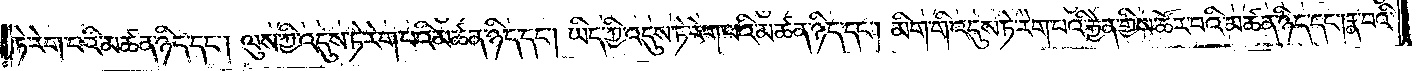ཏེ་རེག་པའི་མཚན་ཉིད་དང༌། ལུས་ཀྱི་འདུས་ཏེ་རེག་པའི་མཚན་ཉིད་དང༌། ཡིད་ཀྱི་འདུས་ཏེ་རེག་པའི་མཚན་ཉིད་དང༌། མིག་གི་འདུས་ཏེ་རེག་པའི་རྐྱེན་གྱིས་ཚོར་བའི་མཚན་ཉིད་དང༌། རྣ་བའི་
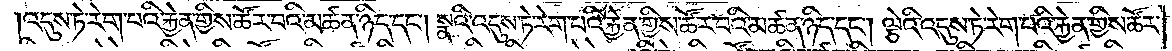འདུས་ཏེ་རེག་པའི་རྐྱེན་གྱིས་ཚོར་བའི་མཚན་ཉིད་དང༌། སྣའི་འདུས་ཏེ་རེག་པའི་རྐྱེན་གྱིས་ཚོར་བའི་མཚན་ཉིད་དང༌། ལྕེའི་འདུས་ཏེ་རེག་པའི་རྐྱེན་གྱིས་ཚོར་
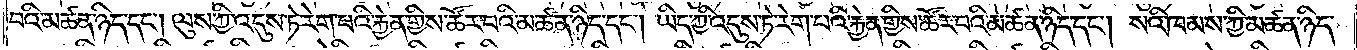བའི་མཚན་ཉིད་དང༌། ལུས་ཀྱི་འདུས་ཏེ་རེག་པའི་རྐྱེན་གྱིས་ཚོར་བའི་མཚན་ཉིད་དང༌། ཡིད་ཀྱི་འདུས་ཏེ་རེག་པའི་རྐྱེན་གྱིས་ཚོར་བའི་མཚན་ཉིད་དང༌། སའི་ཁམས་ཀྱི་མཚན་ཉིད་
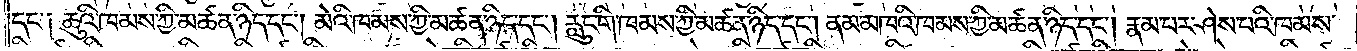དང་༑ ཆུའི་ཁམས་ཀྱི་མཚན་ཉིད་དང༌། མེའི་ཁམས་ཀྱི་མཚན་ཉིད་དང༌། རླུང་གི་ཁམས་ཀྱི་མཚན་ཉིད་དང༌། ནམ་མཁའི་ཁམས་ཀྱི་མཚན་ཉིད་དང༌། རྣམ་པར་ཤེས་པའི་ཁམས་
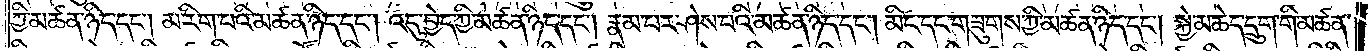ཀྱི་མཚན་ཉིད་དང༌། མ་རིག་པའི་མཚན་ཉིད་དང༌། འདུ་བྱེད་ཀྱི་མཚན་ཉིད་དང༌། རྣམ་པར་ཤེས་པའི་མཚན་ཉིད་དང༌། མིང་དང་གཟུགས་ཀྱི་མཚན་ཉིད་དང༌། སྐྱེ་མཆེད་དྲུག་གི་མཚན་
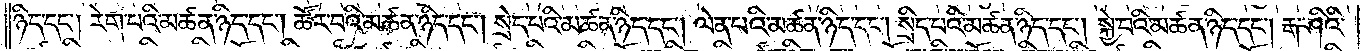ཉིད་དང༌། རེག་པའི་མཚན་ཉིད་དང༌། ཚོར་བའི་མཚན་ཉིད་དང༌། སྲེད་པའི་མཚན་ཉིད་དང༌། ལེན་པའི་མཚན་ཉིད་དང༌། སྲིད་པའི་མཚན་ཉིད་དང༌། སྐྱེ་བའི་མཚན་ཉིད་དང༌། རྒ་ཤིའི་
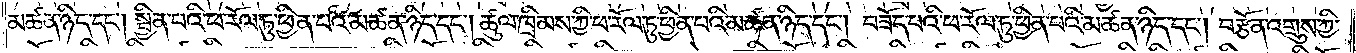མཚན་ཉིད་དང༌། སྦྱིན་པའི་ཕ་རོལ་ཏུ་ཕྱིན་པའི་མཚན་ཉིད་དང༌། ཚུལ་ཁྲིམས་ཀྱི་ཕ་རོལ་ཏུ་ཕྱིན་པའི་མཚན་ཉིད་དང༌། བཟོད་པའི་ཕ་རོལ་ཏུ་ཕྱིན་པའི་མཚན་ཉིད་དང༌། བརྩོན་འགྲུས་ཀྱི་
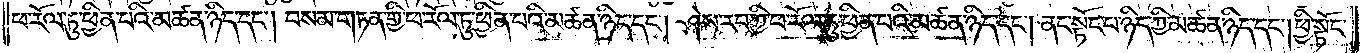ཕ་རོལ་ཏུ་ཕྱིན་པའི་མཚན་ཉིད་དང༌། བསམ་གཏན་གྱི་ཕ་རོལ་ཏུ་ཕྱིན་པའི་མཚན་ཉིད་དང༌། ཤེས་རབ་ཀྱི་ཕ་རོལ་ཏུ་ཕྱིན་པའི་མཚན་ཉིད་དང༌། ནང་སྟོང་པ་ཉིད་ཀྱི་མཚན་ཉིད་དང༌། ཕྱི་སྟོང་
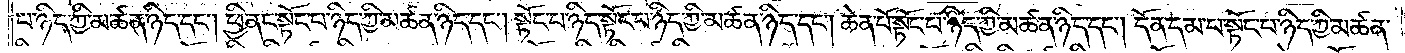པ་ཉིད་ཀྱི་མཚན་ཉིད་དང༌། ཕྱི་ནང་སྟོང་པ་ཉིད་ཀྱི་མཚན་ཉིད་དང༌། སྟོང་པ་ཉིད་སྟོང་པ་ཉིད་ཀྱི་མཚན་ཉིད་དང༌། ཆེན་པོ་སྟོང་པ་ཉིད་ཀྱི་མཚན་ཉིད་དང༌། དོན་དམ་པ་སྟོང་པ་ཉིད་ཀྱི་མཚན་
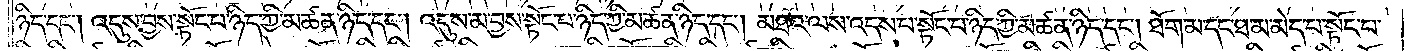ཉིད་དང༌། འདུས་བྱས་སྟོང་པ་ཉིད་ཀྱི་མཚན་ཉིད་དང༌། འདུས་མ་བྱས་སྟོང་པ་ཉིད་ཀྱི་མཚན་ཉིད་དང༌། མཐའ་ལས་འདས་པ་སྟོང་པ་ཉིད་ཀྱི་མཚན་ཉིད་དང༌། ཐོག་མ་དང་ཐ་མ་མེད་པ་སྟོང་པ་
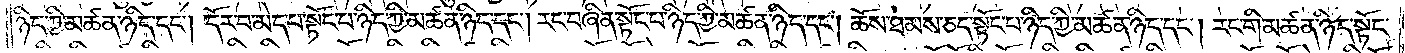ཉིད་ཀྱི་མཚན་ཉིད་དང༌། དོར་བ་མེད་པ་སྟོང་པ་ཉིད་ཀྱི་མཚན་ཉིད་དང༌། རང་བཞིན་སྟོང་པ་ཉིད་ཀྱི་མཚན་ཉིད་དང༌། ཆོས་ཐམས་ཅད་སྟོང་པ་ཉིད་ཀྱི་མཚན་ཉིད་དང༌། རང་གི་མཚན་ཉིད་སྟོང་
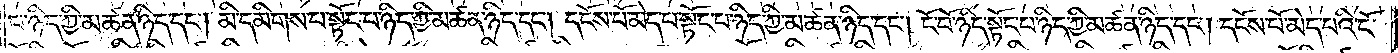པ་ཉིད་ཀྱི་མཚན་ཉིད་དང༌། མི་དམིགས་པ་སྟོང་པ་ཉིད་ཀྱི་མཚན་ཉིད་དང༌། དངོས་པོ་མེད་པ་སྟོང་པ་ཉིད་ཀྱི་མཚན་ཉིད་དང༌། ངོ་བོ་ཉིད་ཀྱི་སྟོང་པ་ཉིད་ཀྱི་མཚན་ཉིད་དང༌། དངོས་པོ་མེད་པའི་ངོ་
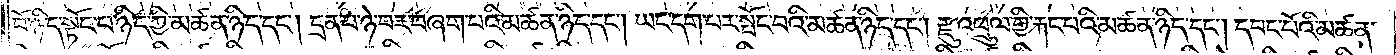བོ་ཉིད་སྟོང་པ་ཉིད་ཀྱི་མཚན་ཉིད་དང༌། དྲན་པ་ཉེ་བར་བཞག་པའི་མཚན་ཉིད་དང༌། ཡང་དག་པར་སྤོང་བའི་མཚན་ཉིད་དང༌། རྫུ་འཕྲུལ་གྱི་རྐང་པའི་མཚན་ཉིད་དང༌། དབང་པོའི་མཚན་
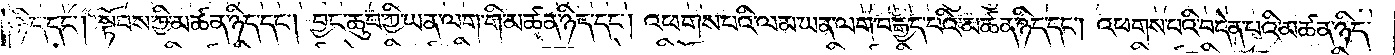ཉིད་དང༌། སྟོབས་ཀྱི་མཚན་ཉིད་དང༌། བྱང་ཆུབ་ཀྱི་ཡན་ལག་གི་མཚན་ཉིད་དང༌། འཕགས་པའི་ལམ་ཡན་ལག་བརྒྱད་པའི་མཚན་ཉིད་དང༌། འཕགས་པའི་བདེན་པའི་མཚན་ཉིད་
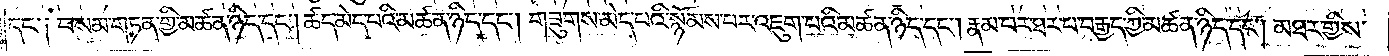དང་༑ བསམ་གཏན་གྱི་མཚན་ཉིད་དང༌། ཚད་མེད་པའི་མཚན་ཉིད་དང༌། གཟུགས་མེད་པའི་སྙོམས་པར་འཇུག་པའི་མཚན་ཉིད་དང༌། རྣམ་པར་ཐར་པ་བརྒྱད་ཀྱི་མཚན་ཉིད་དང༌། མཐར་གྱིས་
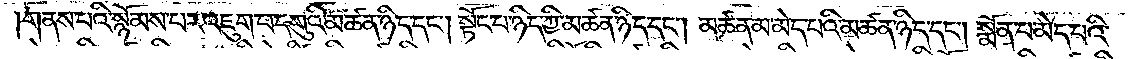གནས་པའི་སྙོམས་པར་འཇུག་པ་དགུའི་མཚན་ཉིད་དང༌། སྟོང་པ་ཉིད་ཀྱི་མཚན་ཉིད་དང༌། མཚན་མ་མེད་པའི་མཚན་ཉིད་དང༌། སྨོན་པ་མེད་པའི་
